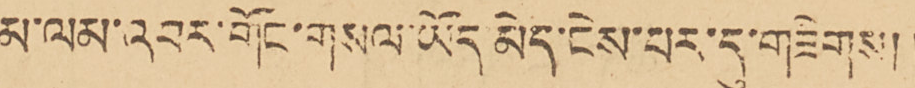མ་ལམ་འབར་གོང་གསལ་ཡོད་མེད་ངེས་པར་དུ་གཟིགས།།
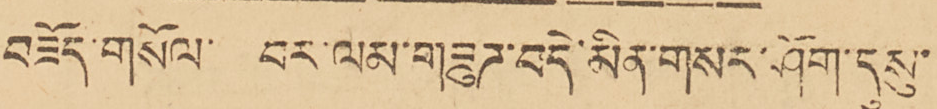བཟོད་གསོལ་ བར་ལམ་གཟུཌ་བདེ་མིན་གསར་ཤོག་དུསུ་
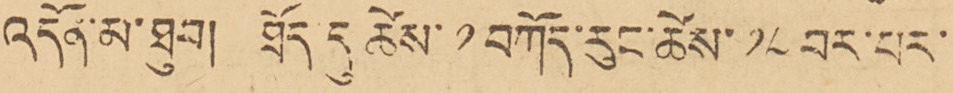འདོན་ལ་ཐུབ། ཐོད་དུ་ཚེས་ ༡ བཀོད་རུང་ཚེས་ ༡༨ བར་པར་
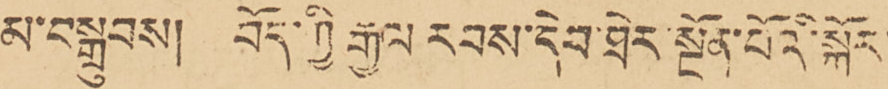མ་བ༹སྒྲུབས། བོད་ཀྱི་རྒྱལ་རབས་དེབ་ཐེར་སྔོན་པོའི་སྐོར་
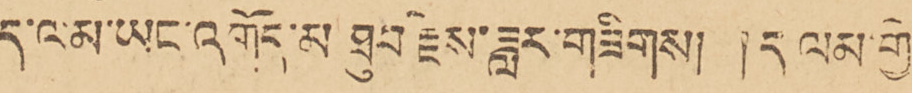ད་ལམ་ཡང་འགོད་མ ཐུབ་རྗེས་ཟླར་གཟིགས། །ད་ལམ་གྱི་
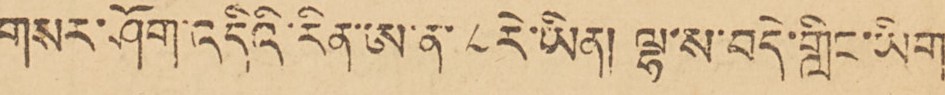གསར་ཤོག་འདིའི་རིན་ཨ་ན་ ༨ རེ་ཡིན། ལྷ་ས་བདེ་གླིང་ཡིག་
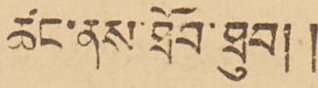ཚང་ནས་ཐོབ་ཐུབ།།
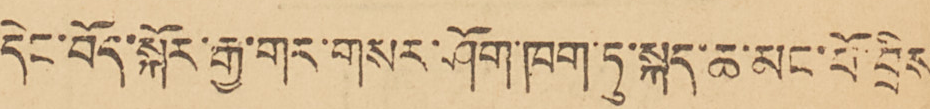དེང་བོད་སྐོར་རྒྱ་གར་གསར་ཤོག་ཁག་ཏུ་སྐད་ཆ་མང་པོ་བྲིས
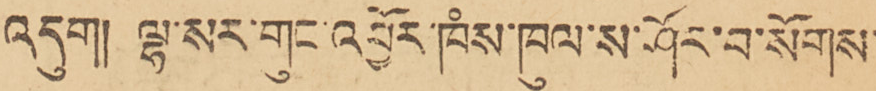འདུག། ལྷ་སར་གུང་འབྱོར་ཁཾས་ཁུལ་ས་ཤོར་བ་སོགས་
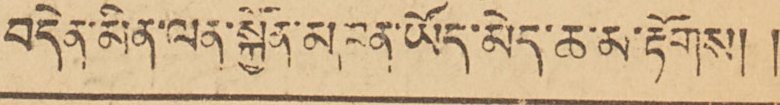བདེན་མིན་ལན་སྐྱོན་མཁན་ཡོད་མེད་ཆ་མ་རྟོགས། །
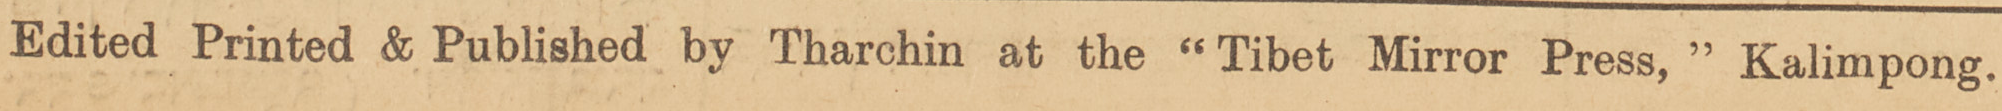Edited Printed & Published by Tharchin at the ''Tibet Mirror Press,'' Kalimpong.
